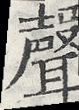聲
